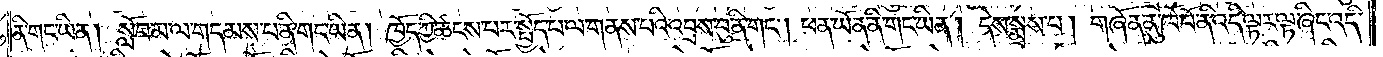ནི་གང་ཡིན། སློབ་མ་ལ་གདམས་པ་ནི་གང་ཡིན། ཁྱོད་ཀྱི་ཚངས་པར་སྤྱོད་པ་ལ་གནས་པའི་འབྲས་བུ་ནི་གང༌། ཕན་ཡོན་ནི་གང་ཡིན། དེས་སྨྲས་པ། གཞོན་ནུ་ཁོ་བོ་ནི་འདི་ལྟར་ལྟ་ཞིང་འདི་
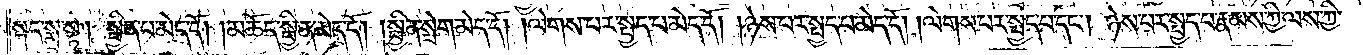སྐད་སྨྲ་སྟེ། སྦྱིན་པ་མེད་དོ། །མཆོད་སྦྱིན་མེད་དོ། །སྦྱིན་སྲེག་མེད་དོ། །ལེགས་པར་སྤྱད་པ་མེད་དོ། །ཉེས་པར་སྤྱད་པ་མེད་དོ། །ལེགས་པར་སྤྱད་པ་དང༌། ཉེས་པར་སྤྱད་པ་རྣམས་ཀྱི་ལས་ཀྱི་
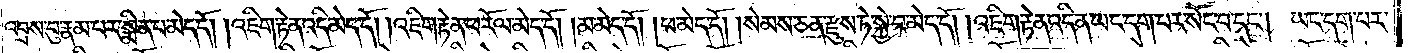འབྲས་བུ་རྣམ་པར་སྨིན་པ་མེད་དོ། །འཇིག་རྟེན་འདི་མེད་དོ། །འཇིག་རྟེན་ཕ་རོལ་མེད་དོ། །མ་མེད་དོ། །ཕ་མེད་དོ། །སེམས་ཅན་རྫུས་ཏེ་སྐྱེ་བ་མེད་དོ། །འཇིག་རྟེན་འདི་ན་ཡང་དག་པར་སོང་བ་དང༌། ཡང་དག་པར་
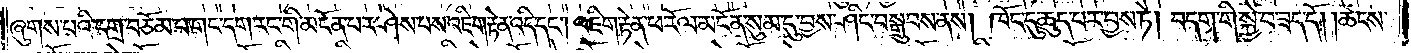ཞུགས་པའི་དགྲ་བཅོམ་པ་གང་དག་རང་གི་མངོན་པར་ཤེས་པས་འཇིག་རྟེན་འདི་དང༌། འཇིག་རྟེན་ཕ་རོལ་མངོན་སུམ་དུ་བྱས་ཤིང་བསྒྲུབས་ནས། ཁོང་དུ་ཆུད་པར་བྱས་ཏེ། བདག་གི་སྐྱེ་བ་ཟད་དོ། །ཚངས་
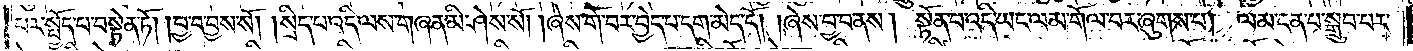པར་སྤྱོད་པ་བསྟེན་ཏོ། །བྱ་བ་བྱས་སོ། །སྲིད་པ་འདི་ལས་གཞན་མི་ཤེས་སོ། །ཞེས་གོ་བར་བྱེད་པ་དག་མེད་དོ། །ཞེས་བྱ་བ་ནས། སྟོན་པ་འདི་ཡང་ལམ་གོལ་བར་ཞུགས་པ། ལམ་ངན་པ་སྒྲུབ་པར་
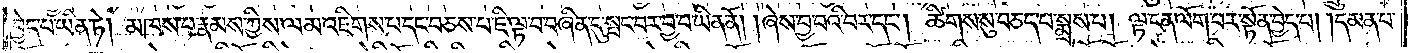བྱེད་པ་ཡིན་ཏེ། མཁས་པ་རྣམས་ཀྱིས་ལམ་འཇིགས་པ་དང་བཅས་པ་ཇི་ལྟ་བ་བཞིན་དུ་སྤང་བར་བྱ་བ་ཡིན་ནོ། །ཞེས་བྱ་བའི་བར་དང༌། ཚིགས་སུ་བཅད་པ་སྨྲས་པ། ལྟ་ངན་ལོག་པར་སྟོན་བྱེད་པ། །དམན་པ་
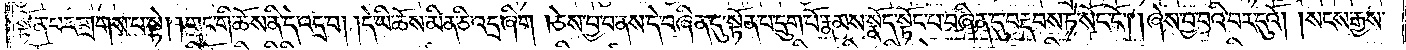སྟོན་པར་གྲགས་པ་སྟེ། །གང་གི་ཆོས་ནི་དེ་འདྲ་བ། །དེ་ཡི་ཆོས་མིན་ཅི་འདྲ་ཞིག །ཅེས་བྱ་བ་ནས་དེ་བཞིན་དུ་སྟོན་པ་དྲུག་པོ་རྣམས་སྣོད་སྟོང་པ་བཞིན་དུ་བརྡབས་ཏེ་སོང་ངོ༌། །ཞེས་བྱ་བའི་བར་དུའོ། །སངས་རྒྱས་
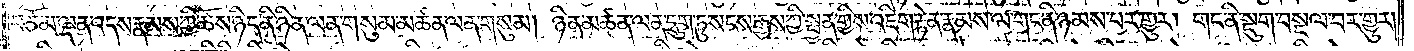བཅོམ་ལྡན་འདས་རྣམས་ཀྱི་ཆོས་ཉིད་ནི་ཉིན་ལན་གསུམ་མཚན་ལན་གསུམ། ཉིན་མཚན་ལན་དྲུག་ཏུ་སངས་རྒྱས་ཀྱི་སྤྱན་གྱིས་འཇིག་རྟེན་རྣམས་ལ་གང་ནི་ཉམས་པར་གྱུར། གང་ནི་སྡུག་བསྔལ་བར་གྱུར་
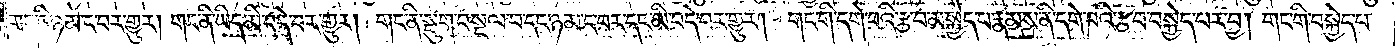གང་ནི་ཉམ་ང་བར་གྱུར། གང་ནི་ཡིད་མི་བདེ་བར་གྱུར། གང་ནི་སྡུག་བསྔལ་བ་དང་ཉམ་ང་བར་དང་མི་བདེ་བར་གྱུར། གང་གི་དགེ་བའི་རྩ་བ་མ་སྐྱེད་པ་རྣམས་ནི་དགེ་བའི་རྩ་བ་བསྐྱེད་པར་བྱ། གང་གི་བསྐྱེད་པ་
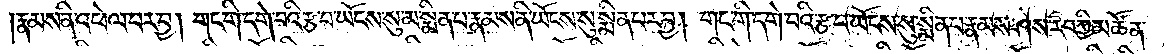རྣམས་ནི་འཕེལ་བར་བྱ། གང་གི་དགེ་བའི་རྩ་བ་ཡོངས་སུ་མ་སྨིན་པ་རྣམས་ནི་ཡོངས་སུ་སྨིན་པར་བྱ། གང་གི་དགེ་བའི་རྩ་བ་ཡོངས་སུ་སྨིན་པ་རྣམས་ཤེས་རབ་ཀྱི་མཚོན་
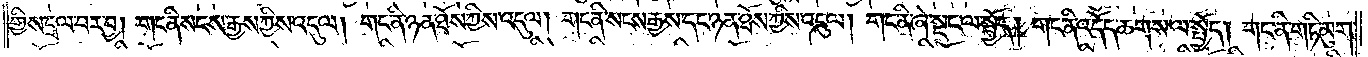གྱིས་དྲལ་བར་བྱ། གང་ནི་སངས་རྒྱས་ཀྱིས་འདུལ། གང་ནི་ཉན་ཐོས་ཀྱིས་འདུལ། གང་ནི་སངས་རྒྱས་དང་ཉན་ཐོས་ཀྱིས་འདུལ། གང་ནི་ཞེ་སྡང་ལ་སྤྱོད། གང་ནི་འདོད་ཆགས་ལ་སྤྱོད། གང་ནི་གཏི་མུག་
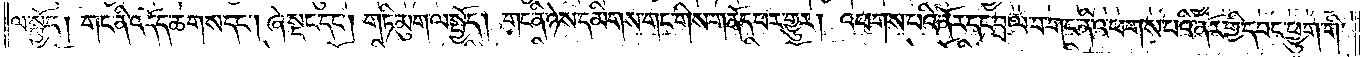ལ་སྤྱོད། གང་ནི་འདོད་ཆགས་དང༌། ཞེ་སྡང་དང༌། གཏི་མུག་ལ་སྤྱོད། གང་ནི་ཉེས་དམིགས་གང་གིས་གནོད་པར་གྱུར། འཕགས་པའི་ནོར་དང་བྲལ་བ་གང་ནི་འཕགས་པའི་ནོར་གྱི་དབང་ཕྱུག་གི་
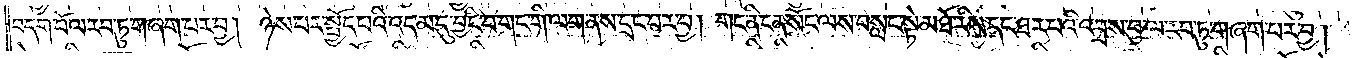བདག་པོ་ལ་རབ་ཏུ་གཞག་པར་བྱ། ཉེས་པར་སྤྱོད་པའི་འདམ་དུ་བྱིང་བ་གང་གི་ལག་ནས་དྲང་བར་བྱ། གང་ནི་ངན་སོང་ལས་བསླང་སྟེ་མཐོ་རིས་དང་ཐར་པའི་འབྲས་བུ་ལ་རབ་ཏུ་གཞག་པར་བྱ།
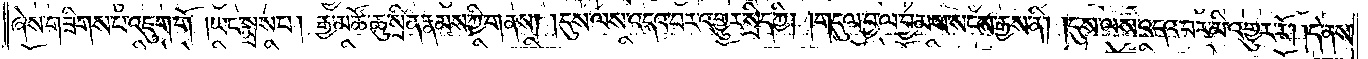ཞེས་གཟིགས་པ་འཇུག་གོ །ཡང་སྨྲས་པ། རྒྱ་མཚོ་ཆུ་སྲིན་རྣམས་ཀྱི་གནས། །དུས་ལས་འདའ་བར་འགྱུར་སྲིད་ཀྱི། །གདུལ་བྱ་ལ་བྱམས་སངས་རྒྱས་ནི། །དུས་ལས་འདའ་བར་མི་འགྱུར་རོ། །དེ་ནས་
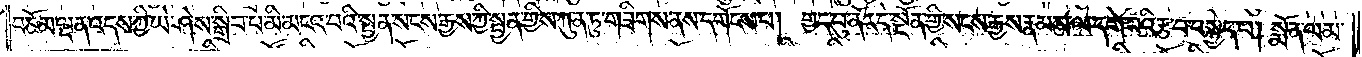བཅོམ་ལྡན་འདས་ཀྱི་ཡེ་ཤེས་སྒྲིབ་པ་མི་མངའ་བའི་སྤྱན་སངས་རྒྱས་ཀྱི་སྤྱན་གྱིས་ཀུན་ཏུ་གཟིགས་ནས་དགོངས་པ། གྱད་བུ་ནོར་དེ་སྔོན་གྱི་སངས་རྒྱས་རྣམས་ལ་དགེ་བའི་རྩ་བ་བསྐྱེད་པ། སྨོན་ལམ་
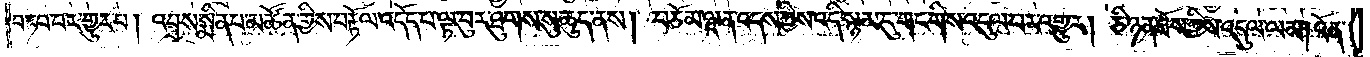བཏབ་པར་གྱུར་པ། འབྲས་སྨིན་པ་མཚོན་གྱིས་བརྟོལ་འདོད་པ་ལྟ་བུར་ཐུགས་སུ་ཆུད་ནས། བཅོམ་ལྡན་འདས་ཀྱིས་འདི་སྙམ་དུ་གང་གིས་འདུལ་བར་འགྱུར། ཅི་ཉན་ཐོས་ཀྱིས་འདུལ་ལམ། འོན་
